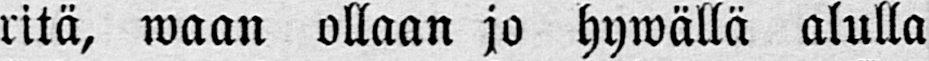ritä, waan ollaan jo hywällä alulla
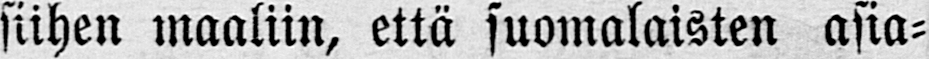siihen maaliin, että suomalaisten asia-
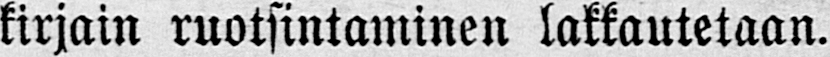kirjain ruotsintaminen lakkautetaan.
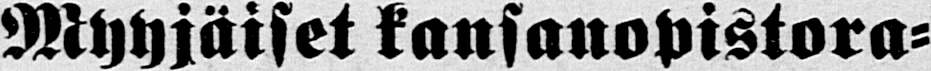Myyjäiset kansanopistora-
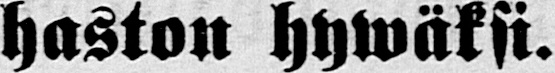haston hwäksi.
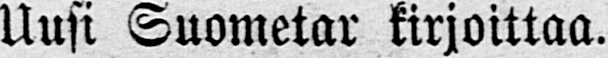Uusi Suometar kirjoittaa.
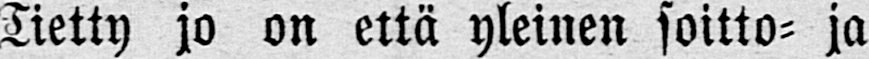Tietty jo on että yleinen soitto- ja
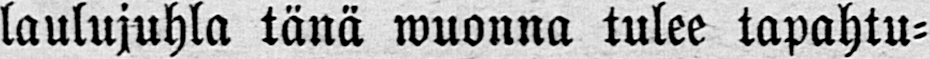laulujuhla tänä wuonna tulee tapahtu-
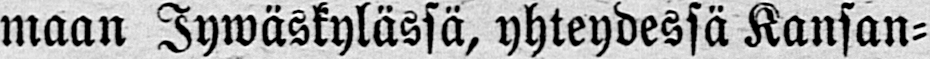maan Jywäskylässä, yhteydessä Kansan-
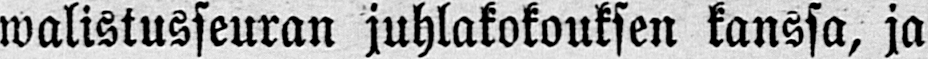walistusseuran juhlakokouksen kanssa, ja
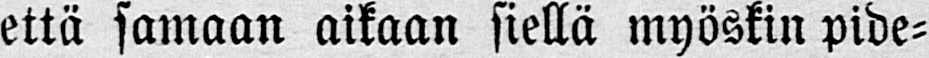että samaan aikaan siellä myöskin pide-
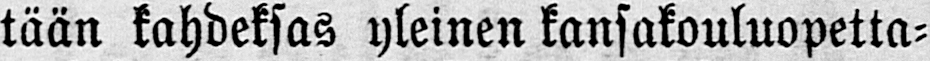tään kahdeksas yleinen kansakouluopetta-
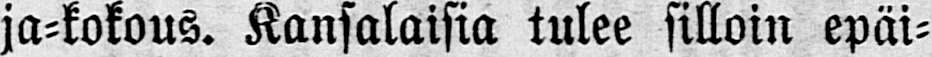ja-kokous. Kansalaisia tulee silloin epäi-
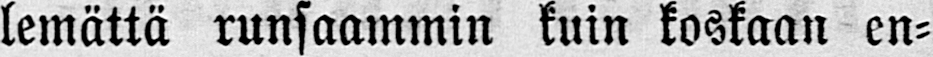lemättä runsaammin kuin koskaan en-
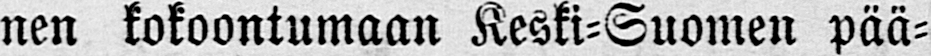nen kokoontumaan Keski-Suomen pää-
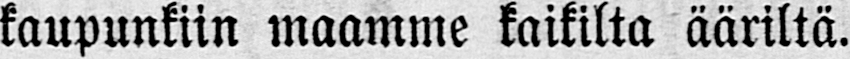kaupunkiin maamme kaikilta ääriltä.
